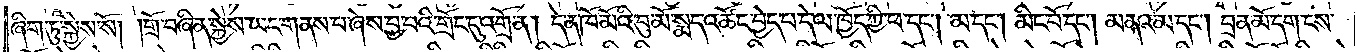ཞིག་ཏུ་སྐྱེས་སོ། །གྲོ་བཞིན་སྐྱེས་ཡང་གནས་པ་ཞེས་བྱ་བའི་གྲོང་དུ་འགྲོ་ན། དེ་ན་ཁོ་མོའི་བུ་མོ་སྨད་འཚོང་བྱེད་པ་དེ་ལ་ཁྱོད་ཀྱི་ཕ་དང༌། མ་དང༌། མིང་པོ་དང༌། མནའ་མ་དང༌། བྲན་མོ་དག་ངས་
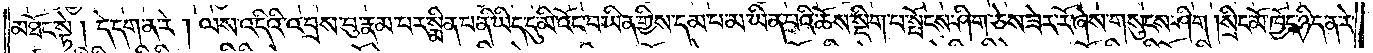མཐོང་སྟེ། དེ་དག་ན་རེ། ལས་འདིའི་འབྲས་བུ་རྣམ་པར་སྨིན་པ་ནི་ཡིད་དུ་མི་འོང་བ་ཡིན་གྱིས་དམ་པ་མ་ཡིན་པའི་ཆོས་སྡིག་པ་སྤོངས་ཤིག་ཅེས་ཟེར་རོ་ཞེས་གསུངས་ཤིག །སྲིང་མོ་ཁྱོད་ཉིད་ན་རེ་
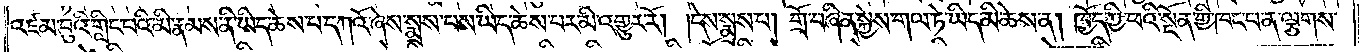འཛམ་བུའི་གླིང་པའི་མི་རྣམས་ནི་ཡིད་ཆེས་པ་དཀའོ་ཞེས་སྨྲས་པས་ཡིད་ཆེས་པར་མི་འགྱུར་རོ། །དེས་སྨྲས་པ། གྲོ་བཞིན་སྐྱེས་གལ་ཏེ་ཡིད་མི་ཆེས་ན། ཁྱོད་ཀྱི་ཕའི་སྔོན་གྱི་ཁང་པ་ན་ལྕགས་
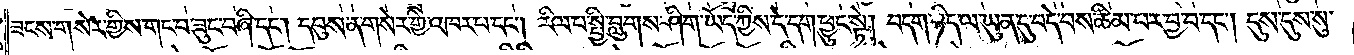ཟངས་གསེར་གྱིས་གང་བ་ཟུང་བཞི་དང༌། དབུས་ན་གསེར་གྱི་འཁར་པ་དང༌། རིལ་པ་སྤྱི་བླུགས་ཤིག་ཡོད་ཀྱིས་དེ་དག་ཕྱུང་སྟེ། བདག་ཉིད་ལ་ཡུན་དུ་བདེ་བས་ཚིམ་པར་བྱ་བ་དང༌། དུས་དུས་སུ་
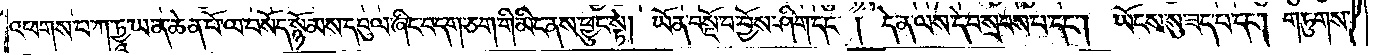འཕགས་པ་ཀ་ཏྱཱ་ཡ་ན་ཆེན་པོ་ལ་བསོད་སྙོམས་དབུལ་ཞིང་བདག་ཅག་གི་མིང་ནས་ཕྱུང་སྟེ། ཡོན་བསྔོ་བ་བྱོས་ཤིག་དང༌། དེ་ན་ལས་དེ་བསྲབས་པ་དང༌། ཡོངས་སུ་ཟད་པ་དང༌། གཏུགས་
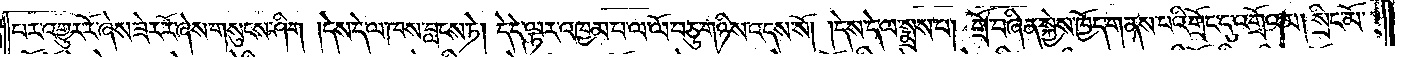པར་འགྱུར་རོ་ཞེས་ཟེར་རོ་ཞེས་གསུངས་ཤིག །དེས་དེ་ལ་ཁས་བླངས་ཏེ། དེ་དེ་ལྟར་འཁྱམ་པ་ལ་ལོ་བཅུ་གཉིས་འདས་སོ། །དེས་དེ་ལ་སྨྲས་པ། གྲོ་བཞིན་སྐྱེས་ཁྱོད་གནས་པའི་གྲོང་དུ་འགྲོའམ། སྲིང་མོ་
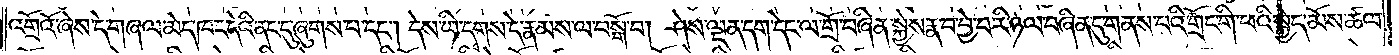འགྲོའོ་ཞེས་དེ་གཞལ་མེད་ཁང་དེའི་ནང་དུ་ཞུགས་པ་དང༌། དེས་ཡི་དྭགས་དེ་རྣམས་ལ་བསྒོ་བ། ཤེས་ལྡན་དག་དེང་ལ་གྲོ་བཞིན་སྐྱེས་རྣ་བ་བྱེ་བ་རི་ཉལ་བཞིན་དུ་གནས་པའི་གྲོང་གི་ཕའི་སྐྱེད་མོས་ཚལ་
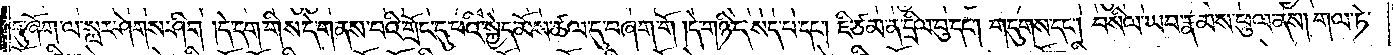དུ་ཞོག་ལ་སླར་ཤེགས་ཤིག །དེ་དག་གིས་དེ་གནས་པའི་གྲོང་དུ་ཕའི་སྐྱེད་མོས་ཚལ་དུ་བཞག་གོ །དེ་གཉིད་སད་པ་དང༌། ཇི་ཙམ་ན་དྲིལ་བུ་དང༌། གདུགས་དང༌། བསིལ་ཡབ་རྣམས་ཕུལ་ནས། གལ་ཏེ་
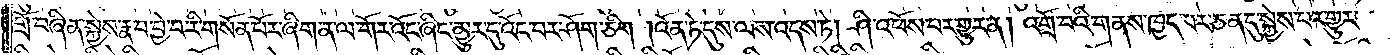གྲོ་བཞིན་སྐྱེས་རྣ་བ་བྱེ་བ་རི་གསོན་པོར་ཞིག་ན་ལ་གོར་འོང་ཞིང་མྱུར་དུ་འོང་བར་ཤོག་ཅིག །འོན་ཏེ་དུས་ལས་འདས་ཏེ། ཤི་འཕོས་པར་གྱུར་ན། འགྲོ་བའི་གནས་ཁྱད་པར་ཅན་དུ་སྐྱེས་པར་གྱུར་
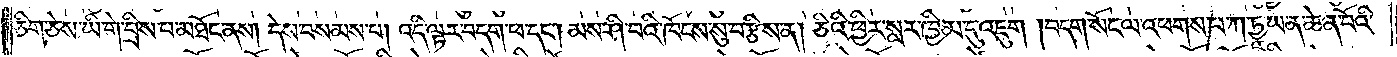ཅིག་ཅེས་ཡི་གེ་བྲིས་པ་མཐོང་ནས། དེས་བསམས་པ། འདི་ལྟར་བདག་ཕ་དང༌། མས་ཤི་བའི་ཁོངས་སུ་བརྩིས་ན། ཅིའི་ཕྱིར་སླར་ཁྱིམ་དུ་འཇུག །བདག་སོང་ལ་འཕགས་པ་ཀ་ཏྱཱ་ཡ་ན་ཆེན་པོའི་
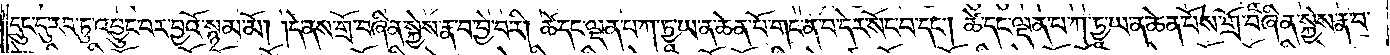དྲུང་དུ་རབ་ཏུ་འབྱུང་བར་བྱའོ་སྙམ་མོ། །དེ་ནས་གྲོ་བཞིན་སྐྱེས་རྣ་བ་བྱེ་བ་རི། ཚེ་དང་ལྡན་པ་ཀ་ཏྱཱ་ཡ་ན་ཆེན་པོ་གང་ན་བ་དེར་སོང་བ་དང༌། ཚེ་དང་ལྡན་པ་ཀ་ཏྱཱ་ཡ་ན་ཆེན་པོས་གྲོ་བཞིན་སྐྱེས་རྣ་བ་
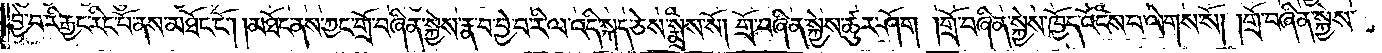བྱེ་བ་རི་རྒྱང་རིང་པོ་ནས་མཐོང་ངོ༌། །མཐོང་ནས་ཀྱང་གྲོ་བཞིན་སྐྱེས་རྣ་བ་བྱེ་བ་རི་ལ་འདི་སྐད་ཅེས་སྨྲས་སོ། གྲོ་བཞིན་སྐྱེས་ཆུར་ཤོག །གྲོ་བཞིན་སྐྱེས་ཁྱོད་འོངས་པ་ལེགས་སོ། །གྲོ་བཞིན་སྐྱེས་
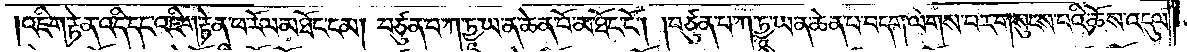འཇིག་རྟེན་འདི་དང་འཇིག་རྟེན་ཕ་རོལ་མཐོང་ངམ། བཙུན་པ་ཀ་ཏྱཱ་ཡ་ན་ཆེན་པོ་མ་ཐོང་ངོ༌། །བཙུན་པ་ཀ་ཏྱཱ་ཡ་ན་ཆེན་པ་བདག་ལགས་པར་གསུངས་པའི་ཆོས་འདུལ་
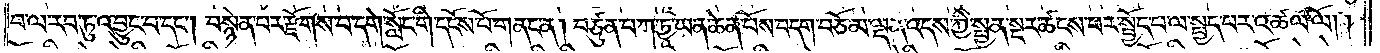བ་ལ་རབ་ཏུ་འབྱུང་བ་དང༌། བསྙེན་པར་རྫོགས་པ་དགེ་སློང་གི་དངོས་པོ་གནང་ན། བཙུན་པ་ཀ་ཏྱཱ་ཡ་ན་ཆེན་པོས་བདག་བཅོམ་ལྡན་འདས་ཀྱི་སྤྱན་སྔར་ཚངས་པར་སྤྱོད་པ་ལ་སྤྱད་པར་འཚལ་ལོ། །
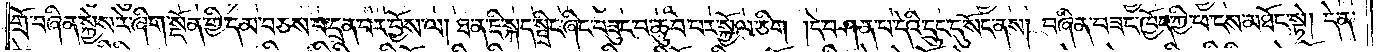གྲོ་བཞིན་སྐྱེས་རེ་ཞིག་སྔོན་གྱི་དམ་བཅས་པ་དྲན་པར་བྱོས་ལ། ཐ་ན་ཇི་སྐད་སྦྲིང་ཞིང་བཟུང་བ་ཆུབ་པར་སྐྱོལ་ཅིག །དེ་བཤན་པ་དེའི་དྲུང་དུ་སོང་ནས། བཞིན་བཟང་ཁྱོད་ཀྱི་ཕ་ངས་མཐོང་སྟེ། དེ་ན་
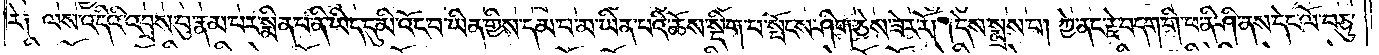རེ༑ ལས་འདིའི་འབྲས་བུ་རྣམ་པར་སྨིན་པ་ནི་ཡིད་དུ་མི་འོང་བ་ཡིན་གྱིས་དམ་པ་མ་ཡིན་པའི་ཆོས་སྡིག་པ་སྤོངས་ཤིག་ཅེས་ཟེར་རོ། །དེས་སྨྲས་པ། ཀྱེ་ནང་རྗེ་བདག་གི་ཕ་ནི་ཤི་ནས་དེང་ལོ་བཅུ་
